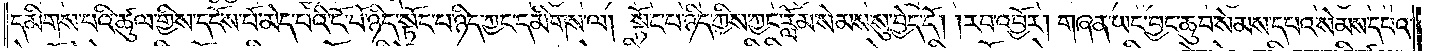དམིགས་པའི་ཚུལ་གྱིས་དངོས་པོ་མེད་པའི་ངོ་བོ་ཉིད་སྟོང་པ་ཉིད་ཀྱང་དམིགས་ལ། སྟོང་པ་ཉིད་ཀྱིས་ཀྱང་རློམ་སེམས་སུ་བྱེད་དོ། །རབ་འབྱོར། གཞན་ཡང་བྱང་ཆུབ་སེམས་དཔའ་སེམས་དཔའ་
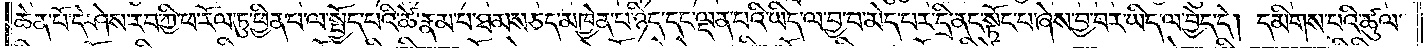ཆེན་པོ་དེ་ཤེས་རབ་ཀྱི་ཕ་རོལ་ཏུ་ཕྱིན་པ་ལ་སྤྱོད་པའི་ཚེ་རྣམ་པ་ཐམས་ཅད་མཁྱེན་པ་ཉིད་དང་ལྡན་པའི་ཡིད་ལ་བྱ་བ་མེད་པར་དྲི་ནང་སྟོང་པ་ཞེས་བྱ་བར་ཡིད་ལ་བྱེད་དེ། དམིགས་པའི་ཚུལ་
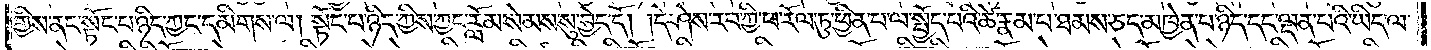གྱིས་ནང་སྟོང་པ་ཉིད་ཀྱང་དམིགས་ལ། སྟོང་པ་ཉིད་ཀྱིས་ཀྱང་རློམ་སེམས་སུ་བྱེད་དོ། །དེ་ཤེས་རབ་ཀྱི་ཕ་རོལ་ཏུ་ཕྱིན་པ་ལ་སྤྱོད་པའི་ཚེ་རྣམ་པ་ཐམས་ཅད་མཁྱེན་པ་ཉིད་དང་ལྡན་པའི་ཡིད་ལ་
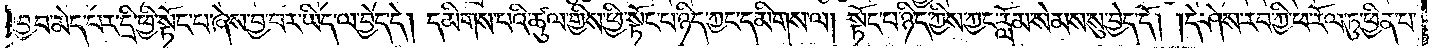བྱ་བ་མེད་པར་དྲི་ཕྱི་སྟོང་པ་ཞེས་བྱ་བར་ཡིད་ལ་བྱེད་དེ། དམིགས་པའི་ཚུལ་གྱིས་ཕྱི་སྟོང་པ་ཉིད་ཀྱང་དམིགས་ལ། སྟོང་པ་ཉིད་ཀྱིས་ཀྱང་རློམ་སེམས་སུ་བྱེད་དོ། །དེ་ཤེས་རབ་ཀྱི་ཕ་རོལ་ཏུ་ཕྱིན་པ་
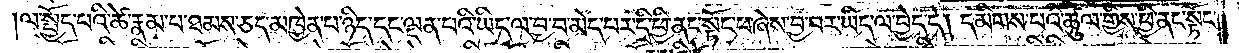ལ་སྤྱོད་པའི་ཚེ་རྣམ་པ་ཐམས་ཅད་མཁྱེན་པ་ཉིད་དང་ལྡན་པའི་ཡིད་ལ་བྱ་བ་མེད་པར་དྲི་ཕྱི་ནང་སྟོང་པ་ཞེས་བྱ་བར་ཡིད་ལ་བྱེད་དེ། དམིགས་པའི་ཚུལ་གྱིས་ཕྱི་ནང་སྟོང་
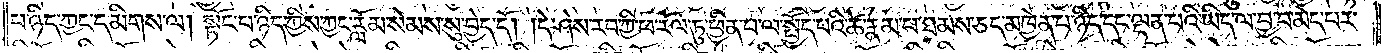པ་ཉིད་ཀྱང་དམིགས་ལ། སྟོང་པ་ཉིད་ཀྱིས་ཀྱང་རློམ་སེམས་སུ་བྱེད་དོ། །དེ་ཤེས་རབ་ཀྱི་ཕ་རོལ་ཏུ་ཕྱིན་པ་ལ་སྤྱོད་པའི་ཚེ་རྣམ་པ་ཐམས་ཅད་མཁྱེན་པ་ཉིད་དང་ལྡན་པའི་ཡིད་ལ་བྱ་བ་མེད་པར་
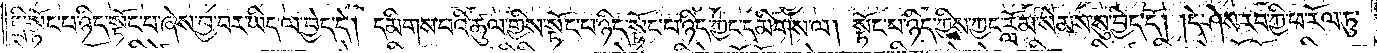དྲི་སྟོང་པ་ཉིད་སྟོང་པ་ཞེས་བྱ་བར་ཡིད་ལ་བྱེད་དེ། དམིགས་པའི་ཚུལ་གྱིས་སྟོང་པ་ཉིད་སྟོང་པ་ཉིད་ཀྱང་དམིགས་ལ། སྟོང་པ་ཉིད་ཀྱིས་ཀྱང་རློམ་སེམས་སུ་བྱེད་དོ། །དེ་ཤེས་རབ་ཀྱི་ཕ་རོལ་ཏུ་
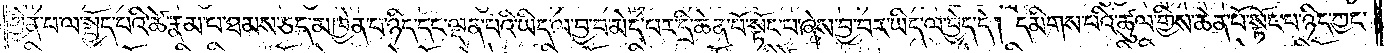ཕྱིན་པ་ལ་སྤྱོད་པའི་ཚེ་རྣམ་པ་ཐམས་ཅད་མཁྱེན་པ་ཉིད་དང་ལྡན་པའི་ཡིད་ལ་བྱ་བ་མེད་པར་དྲི་ཆེན་པོ་སྟོང་པ་ཞེས་བྱ་བར་ཡིད་ལ་བྱེད་དེ། དམིགས་པའི་ཚུལ་གྱིས་ཆེན་པོ་སྟོང་པ་ཉིད་ཀྱང་
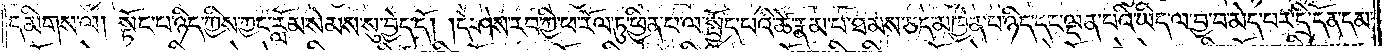དམིགས་ལ། སྟོང་པ་ཉིད་ཀྱིས་ཀྱང་རློམ་སེམས་སུ་བྱེད་དོ། །དེ་ཤེས་རབ་ཀྱི་ཕ་རོལ་ཏུ་ཕྱིན་པ་ལ་སྤྱོད་པའི་ཚེ་རྣམ་པ་ཐམས་ཅད་མཁྱེན་པ་ཉིད་དང་ལྡན་པའི་ཡིད་ལ་བྱ་བ་མེད་པར་དྲི་དོན་དམ་
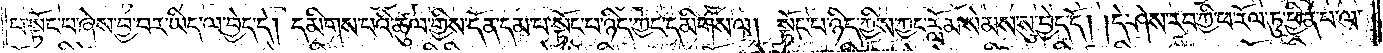པ་སྟོང་པ་ཞེས་བྱ་བར་ཡིད་ལ་བྱེད་དེ། དམིགས་པའི་ཚུལ་གྱིས་དོན་དམ་པ་སྟོང་པ་ཉིད་ཀྱང་དམིགས་ལ། སྟོང་པ་ཉིད་ཀྱིས་ཀྱང་རློམ་སེམས་སུ་བྱེད་དོ། །དེ་ཤེས་རབ་ཀྱི་ཕ་རོལ་ཏུ་ཕྱིན་པ་ལ་
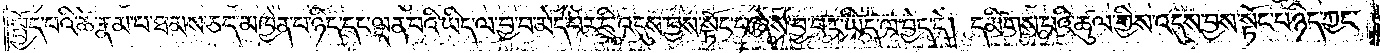སྤྱོད་པའི་ཚེ་རྣམ་པ་ཐམས་ཅད་མཁྱེན་པ་ཉིད་དང་ལྡན་པའི་ཡིད་ལ་བྱ་བ་མེད་པར་དྲི་འདུས་བྱས་སྟོང་པ་ཞེས་བྱ་བར་ཡིད་ལ་བྱེད་དེ། དམིགས་པའི་ཚུལ་གྱིས་འདུས་བྱས་སྟོང་པ་ཉིད་ཀྱང་
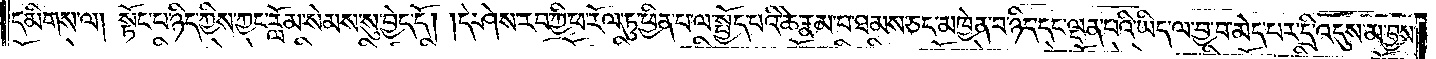དམིགས་ལ། སྟོང་པ་ཉིད་ཀྱིས་ཀྱང་རློམ་སེམས་སུ་བྱེད་དོ། །དེ་ཤེས་རབ་ཀྱི་ཕ་རོལ་ཏུ་ཕྱིན་པ་ལ་སྤྱོད་པའི་ཚེ་རྣམ་པ་ཐམས་ཅད་མཁྱེན་པ་ཉིད་དང་ལྡན་པའི་ཡིད་ལ་བྱ་བ་མེད་པར་དྲི་འདུས་མ་བྱས་
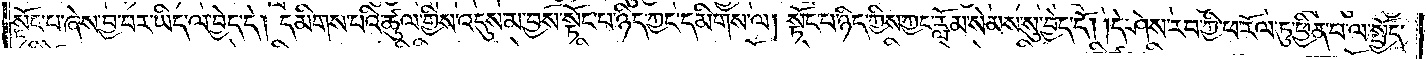སྟོང་པ་ཞེས་བྱ་བར་ཡིད་ལ་བྱེད་དེ། དམིགས་པའི་ཚུལ་གྱིས་འདུས་མ་བྱས་སྟོང་པ་ཉིད་ཀྱང་དམིགས་ལ། སྟོང་པ་ཉིད་ཀྱིས་ཀྱང་རློམ་སེམས་སུ་བྱེད་དོ། །དེ་ཤེས་རབ་ཀྱི་ཕ་རོལ་ཏུ་ཕྱིན་པ་ལ་སྤྱོད་
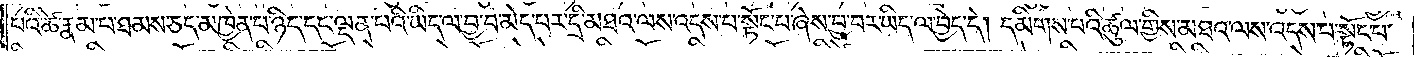པའི་ཚེ་རྣམ་པ་ཐམས་ཅད་མཁྱེན་པ་ཉིད་དང་ལྡན་པའི་ཡིད་ལ་བྱ་བ་མེད་པར་དྲི་མཐའ་ལས་འདས་པ་སྟོང་པ་ཞེས་བྱ་བར་ཡིད་ལ་བྱེད་དེ། དམིགས་པའི་ཚུལ་གྱིས་མཐའ་ལས་འདས་པ་སྟོང་པ་
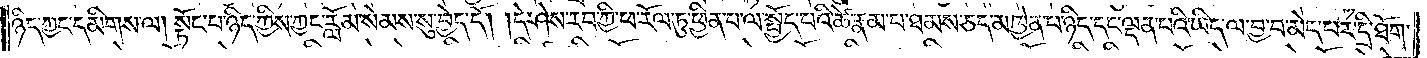ཉིད་ཀྱང་དམིགས་ལ། སྟོང་པ་ཉིད་ཀྱིས་ཀྱང་རློམ་སེམས་སུ་བྱེད་དོ། །དེ་ཤེས་རབ་ཀྱི་ཕ་རོལ་ཏུ་ཕྱིན་པ་ལ་སྤྱོད་པའི་ཚེ་རྣམ་པ་ཐམས་ཅད་མཁྱེན་པ་ཉིད་དང་ལྡན་པའི་ཡིད་ལ་བྱ་བ་མེད་པར་དྲི་ཐོག་
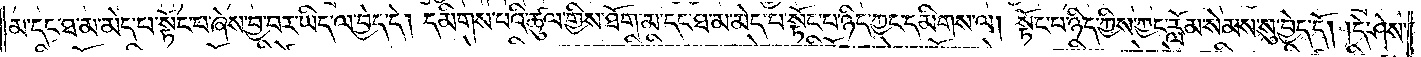མ་དང་ཐ་མ་མེད་པ་སྟོང་པ་ཞེས་བྱ་བར་ཡིད་ལ་བྱེད་དེ། དམིགས་པའི་ཚུལ་གྱིས་ཐོག་མ་དང་ཐ་མ་མེད་པ་སྟོང་པ་ཉིད་ཀྱང་དམིགས་ལ། སྟོང་པ་ཉིད་ཀྱིས་ཀྱང་རློམ་སེམས་སུ་བྱེད་དོ། །དེ་ཤེས་
